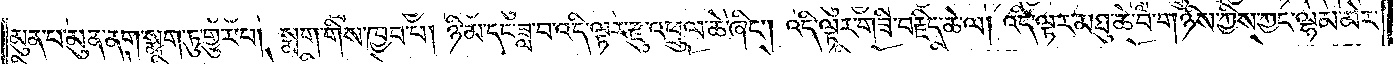མུན་པ་མུན་ནག་སྨག་ཏུ་གྱུར་པ། སྨག་གིས་ཁྱབ་པ། ཉི་མ་དང་ཟླ་བ་འདི་ལྟར་རྫུ་འཕྲུལ་ཆེ་ཞིང༌། འདི་ལྟར་གཟི་བརྗིད་ཆེ་ལ། འདི་ལྟར་མཐུ་ཆེ་བ་གཉིས་ཀྱིས་ཀྱང་ལྷམ་མེར་
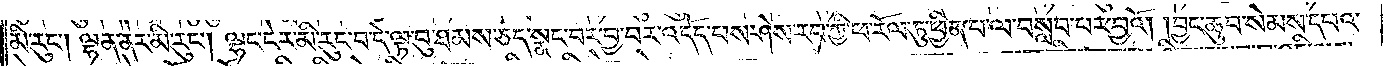མི་རུང༌། ལྷན་ནེར་མི་རུང༌། ལྷང་ངེར་མི་རུང་བ་དེ་ལྟ་བུ་ཐམས་ཅད་སྣང་བར་བྱ་བར་འདོད་པས་ཤེས་རབ་ཀྱི་ཕ་རོལ་ཏུ་ཕྱིན་པ་ལ་བསླབ་པར་བྱའོ། །བྱང་ཆུབ་སེམས་དཔའ་
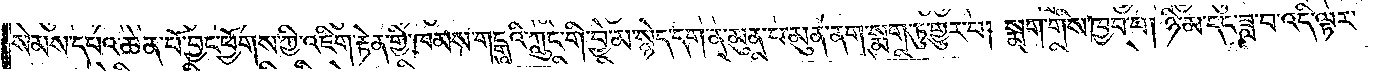སེམས་དཔའ་ཆེན་པོ་བྱང་ཕྱོགས་ཀྱི་འཇིག་རྟེན་གྱི་ཁམས་གངྒཱའི་ཀླུང་གི་བྱེ་མ་སྙེད་དག་ན་མུན་པ་མུན་ནག་སྨག་ཏུ་གྱུར་པ། སྨག་གིས་ཁྱབ་པ། ཉི་མ་དང་ཟླ་བ་འདི་ལྟར་
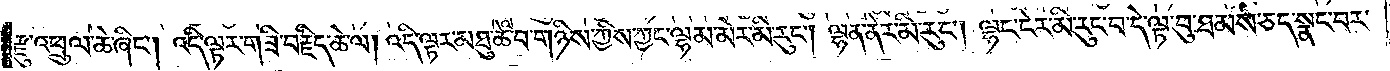རྫུ་འཕྲུལ་ཆེ་ཞིང༌། འདི་ལྟར་གཟི་བརྗིད་ཆེ་ལ། འདི་ལྟར་མཐུ་ཆེ་བ་གཉིས་ཀྱིས་ཀྱང་ལྷམ་མེར་མི་རུང༌། ལྷན་ནེར་མི་རུང༌། ལྷང་ངེར་མི་རུང་བ་དེ་ལྟ་བུ་ཐམས་ཅད་སྣང་བར་
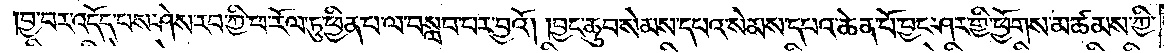བྱ་བར་འདོད་པས་ཤེས་རབ་ཀྱི་ཕ་རོལ་ཏུ་ཕྱིན་པ་ལ་བསླབ་པར་བྱའོ། །བྱང་ཆུབ་སེམས་དཔའ་སེམས་དཔའ་ཆེན་པོ་བྱང་ཤར་གྱི་ཕྱོགས་མཚམས་ཀྱི་
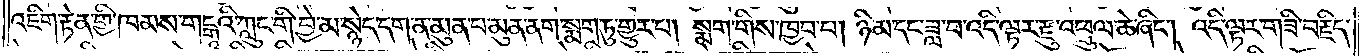འཇིག་རྟེན་གྱི་ཁམས་གངྒཱའི་ཀླུང་གི་བྱེ་མ་སྙེད་དག་ན་མུན་པ་མུན་ནག་སྨག་ཏུ་གྱུར་པ། སྨག་གིས་ཁྱབ་པ། ཉི་མ་དང་ཟླ་བ་འདི་ལྟར་རྫུ་འཕྲུལ་ཆེ་ཞིང༌། འདི་ལྟར་གཟི་བརྗིད་
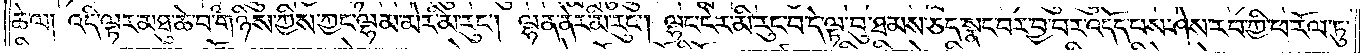ཆེ་ལ། འདི་ལྟར་མཐུ་ཆེ་བ་གཉིས་ཀྱིས་ཀྱང་ལྷམ་མེར་མི་རུང༌། ལྷན་ནེར་མི་རུང༌། ལྷང་ངེར་མི་རུང་བ་དེ་ལྟ་བུ་ཐམས་ཅད་སྣང་བར་བྱ་བར་འདོད་པས་ཤེས་རབ་ཀྱི་ཕ་རོལ་ཏུ་
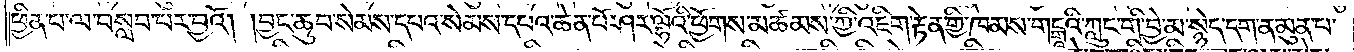ཕྱིན་པ་ལ་བསླབ་པར་བྱའོ། །བྱང་ཆུབ་སེམས་དཔའ་སེམས་དཔའ་ཆེན་པོ་ཤར་ལྷོའི་ཕྱོགས་མཚམས་ཀྱི་འཇིག་རྟེན་གྱི་ཁམས་གངྒཱའི་ཀླུང་གི་བྱེ་མ་སྙེད་དག་ན་མུན་པ་
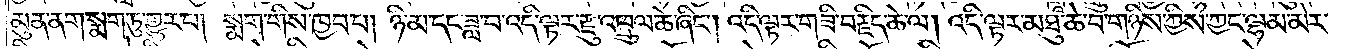མུན་ནག་སྨག་ཏུ་གྱུར་པ། སྨག་གིས་ཁྱབ་པ། ཉི་མ་དང་ཟླ་བ་འདི་ལྟར་རྫུ་འཕྲུལ་ཆེ་ཞིང༌། འདི་ལྟར་གཟི་བརྗིད་ཆེ་ལ། འདི་ལྟར་མཐུ་ཆེ་བ་གཉིས་ཀྱིས་ཀྱང་ལྷམ་མེར་
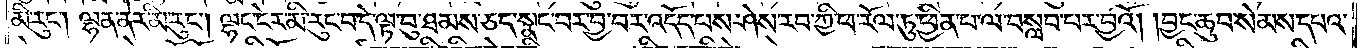མི་རུང༌། ལྷན་ནེར་མི་རུང༌། ལྷང་ངེར་མི་རུང་བ་དེ་ལྟ་བུ་ཐམས་ཅད་སྣང་བར་བྱ་བར་འདོད་པས་ཤེས་རབ་ཀྱི་ཕ་རོལ་ཏུ་ཕྱིན་པ་ལ་བསླབ་པར་བྱའོ། །བྱང་ཆུབ་སེམས་དཔའ་
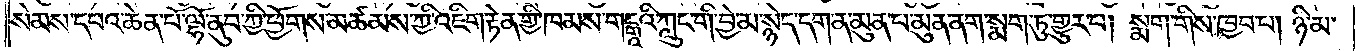སེམས་དཔའ་ཆེན་པོ་ལྷོ་ནུབ་ཀྱི་ཕྱོགས་མཚམས་ཀྱི་འཇིག་རྟེན་གྱི་ཁམས་གངྒཱའི་ཀླུང་གི་བྱེ་མ་སྙེད་དག་ན་མུན་པ་མུན་ནག་སྨག་ཏུ་གྱུར་བ། སྨག་གིས་ཁྱབ་པ། ཉི་མ་
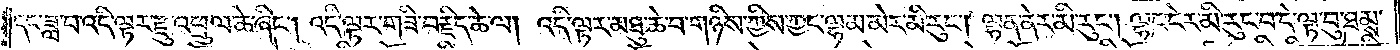དང་ཟླ་བ་འདི་ལྟར་རྫུ་འཕྲུལ་ཆེ་ཞིང༌། འདི་ལྟར་གཟི་བརྗིད་ཆེ་ལ། འདི་ལྟར་མཐུ་ཆེ་བ་གཉིས་ཀྱིས་ཀྱང་ལྷམ་མེར་མི་རུང༌། ལྷན་ནེར་མི་རུང༌། ལྷང་ངེར་མི་རུང་བ་དེ་ལྟ་བུ་ཐམས་
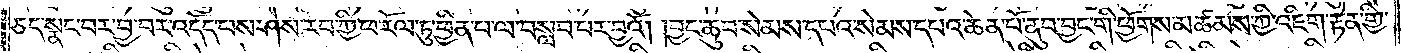ཅད་སྣང་བར་བྱ་བར་འདོད་པས་ཤེས་རབ་ཀྱི་ཕ་རོལ་ཏུ་ཕྱིན་པ་ལ་བསླབ་པར་བྱའོ། །བྱང་ཆུབ་སེམས་དཔའ་སེམས་དཔའ་ཆེན་པོ་ནུབ་བྱང་གི་ཕྱོགས་མཚམས་ཀྱི་འཇིག་རྟེན་གྱི་
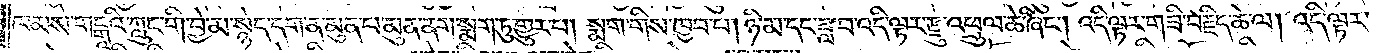ཁམས་གངྒཱའི་ཀླུང་གི་བྱེ་མ་སྙེད་དག་ན་མུན་པ་མུན་ནག་སྨག་ཏུ་གྱུར་པ། སྨག་གིས་ཁྱབ་པ། ཉི་མ་དང་ཟླ་བ་འདི་ལྟར་རྫུ་འཕྲུལ་ཆེ་ཞིང༌། འདི་ལྟར་གཟི་བརྗིད་ཆེ་ལ། འདི་ལྟར་
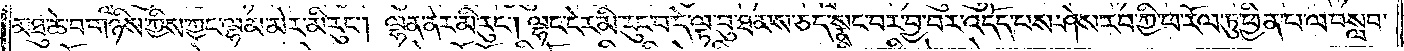མཐུ་ཆེ་བ་གཉིས་ཀྱིས་ཀྱང་ལྷམ་མེར་མི་རུང༌། ལྷན་ནེར་མི་རུང༌། ལྷང་ངེར་མི་རུང་བ་དེ་ལྟ་བུ་ཐམས་ཅད་སྣང་བར་བྱ་བར་འདོད་པས་ཤེས་རབ་ཀྱི་ཕ་རོལ་ཏུ་ཕྱིན་པ་ལ་བསླབ་
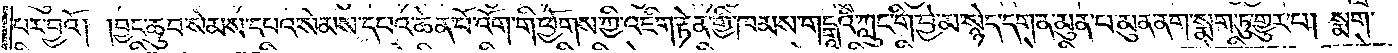པར་བྱའོ། །བྱང་ཆུབ་སེམས་དཔའ་སེམས་དཔའ་ཆེན་པོ་འོག་གི་ཕྱོགས་ཀྱི་འཇིག་རྟེན་གྱི་ཁམས་གངྒཱའི་ཀླུང་གི་བྱེ་མ་སྙེད་དག་ན་མུན་པ་མུན་ནག་སྨག་ཏུ་གྱུར་པ། སྨག་
